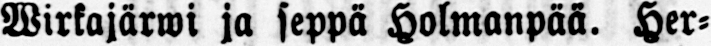Wirkajärwi ja seppä Holmanpää. Her-
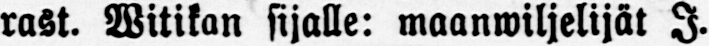rast. Witikan sijalle: maanwiljelijät J.
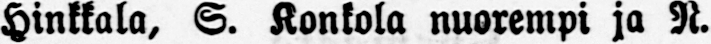Hinkkala, S. Konkola nuorempi ja N.
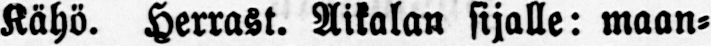Kähö. Herrast. Aikalan sijalle: maan-
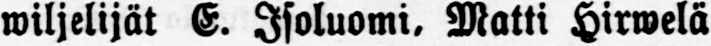wiljelijät E. Isoluomi. Matti Hirwelä
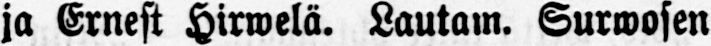ja Ernest Hirwelä. Lautam. Surwosen
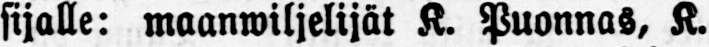sijalle: maanwiljelijät K. Puonnas, K.
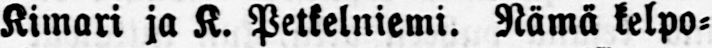Kimari ja K. Petkelniemi. Nämä kelpo-
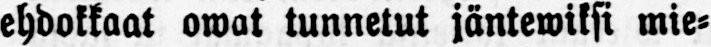ehdokkaat owat tunnetut jäntewiksi mie-
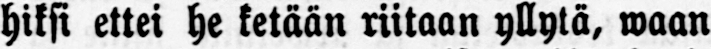hiksi ettei he ketään riitaan yllytä, waan
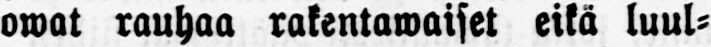owat rauhaa rakentawaiset eikä luul-
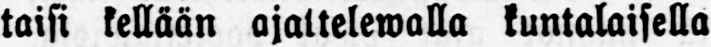taisi kellään ajattelewalla kuntalaisella
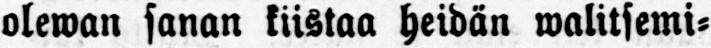olewan sanan kiistaa heidän walitsemi-
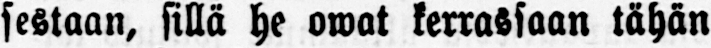sestaan, sillä he owat kerrassaan tähän
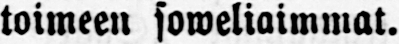toimeen soweliaimmat.
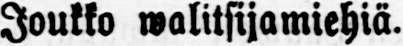Joukko walitsijamiehiä.
